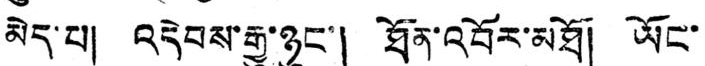མེད་པ། འདེབས་རྒྱུ་ཉུང་། ཐོན་འབོར་མཐོ། ཡོང་
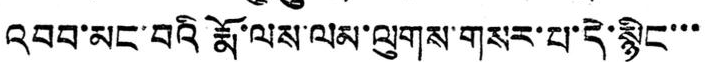འབབ་མང་བའི རྨོ་ལས་ལམ་ལུགས་གསར་པ་དེ་སྙིང་་་
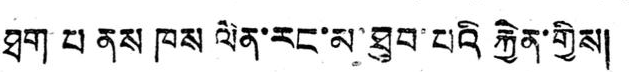ཐག པ ནས ཁས ལེན་རང་མ་ཐུབ་པའི རྐྱེན་གྱིས།
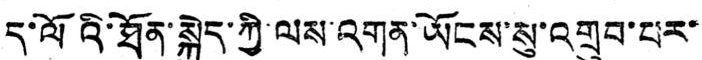ད་ལོའི་ཐོན་སྐྱེད་ཀྱི་ལས་འགན་ཡོངས་སུ་འགྲུབ་པར་
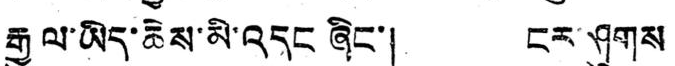བྱ་རྒྱུ ལ་ཡིད་ཆེས་མི་འདང་ཞིང་། ངར་ཤུགས
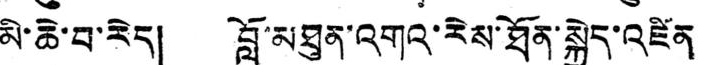མི་ཆེ་བ་རེད། བློ་མཐུན་འགའ་རེས་ཐོན་སྐྱེད་འཛིན
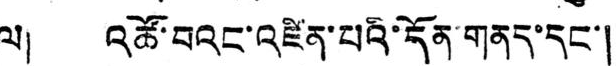ལ། འཚོ་བའང་འཛིན་པའི་དོན་གནད་དང་།
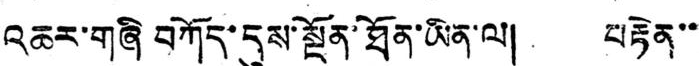འཆར་གཞི བཀོད་དུས་སྔོན་ཐོན་ཡིན་ལ། བརྟེན་་
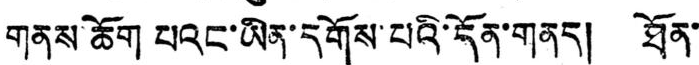གནས་ཆོག པའང་ཡིན་དགོས་པའི་དོན་གནད། ཐོན་
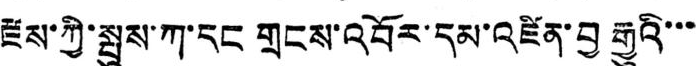རྫས་ཀྱི་སྤུས་ཀ་དང གྲངས་འབོར་དམ་འཛིན་བྱ རྒྱུའི་་་
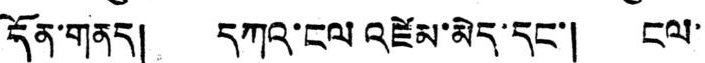དོན་གནད། དཀའ་ངལ འཛེམ་མེད་དང་། ངལ་
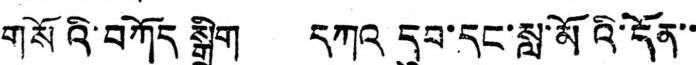གསོའི་བཀོད སྒྲིག དཀའ དུབ་དང་སླ་མོའི་དོན་་
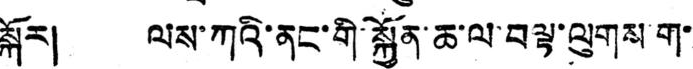སྐོར། ལས་ཀའི་ནང་གི་སྐྱོན་ཆ་ལ་བལྟ་ལུགས་ག་
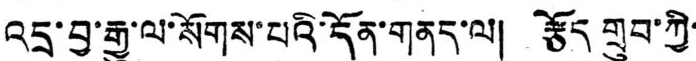འདྲ་བྱ་རྒྱུ་ལ་སོགས་པའི་དོན་གནད་ལ། རྩོད གྲུབ་ཀྱི་
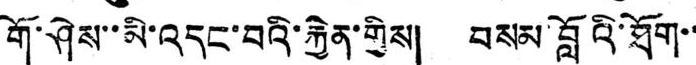གོ་ཤེས་་མི་འདང་བའི་རྐྱེན་གྱིས། བསམ་བློའི་ཐོག་་
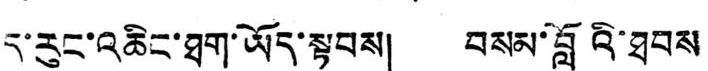ད་རུང་འཆིང་ཐག་ཡོད་སྟབས། བསམ་བློའི་ཐབས
